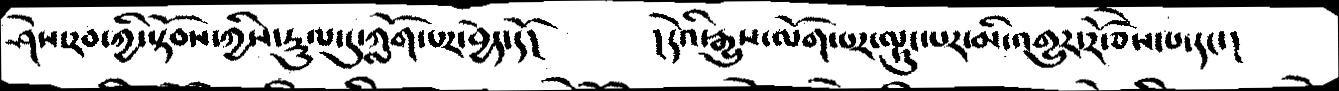ཤེས་རབ་ཀྱི་སྟོབས་ཀྱིས་རྡུལ་དུ་ཀློག་པར་བྱེད་དོ།   །དེའི་རྒྱུས་ལོག་པར་ལྟུང་པར་མི་འགྱུར་རོ་ཅེས་པ་དང་།
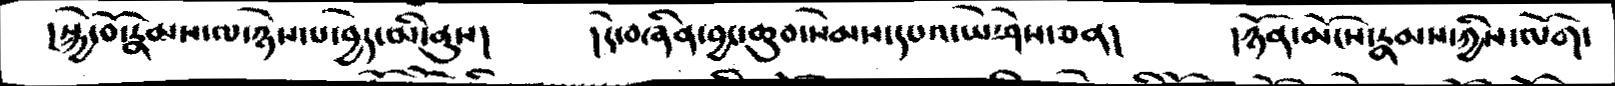།སྐྱེ་བོ་རྣམས་ལ་ཉེས་པ་བྱེད་མི་ནུས།    །དེ་བཞིན་བྱང་ཆུབ་སེམས་དཔའ་ཡེ་ཤེས་ཅན།    །ཉོན་མོངས་རྣམས་ཀྱིས་ལོག་
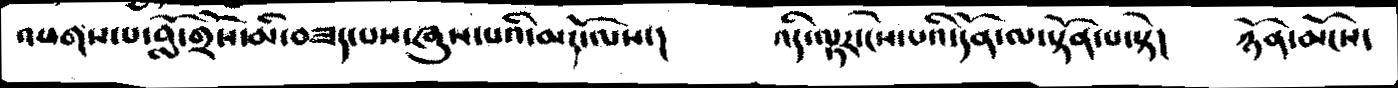འཕགས་པ་བློ་གྲོས་མི་བཟད་པས་ཞུས་པའི་མདོ་ལས་།    འདི་ལྟར་ངེས་པའི་དོན་ལ་སྟོན་པ་སྟེ།   ཉོན་མོངས་
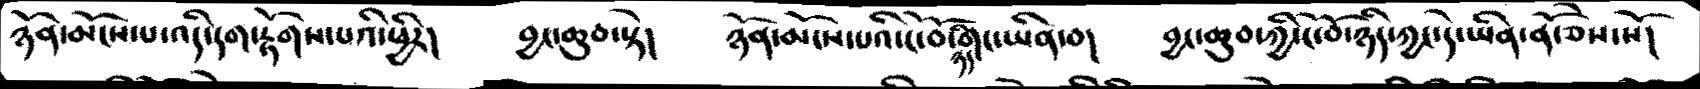ཉོན་མོངས་པ་འདི་དག་རྟོགས་པའི་ཕྱིར།   བྱང་ཆུབ་སྟེ།   ཉོན་མོངས་པའི་ངོ་བོ་ཉིད་གང་ཡིན་བ།   བྱང་ཆུབ་ཀྱི་ངོ་བོ་ཉིད་ཀྱང་དེ་ཡིན་ནོ་ཅེས་སོ།
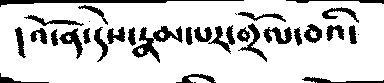།འོ་ན་དེས་རྣམ་པར་གྲོལ་བའི་
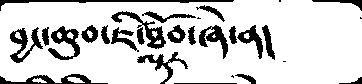བྱང་ཆུབ་ཇི་ལྟར་ཐོབ་ཞེ་ན།
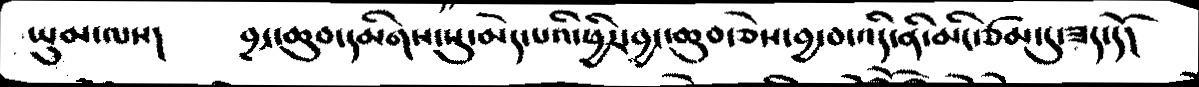ཡུམ་ལས།    བྱང་ཆུབ་དམིགས་སུ་མེད་པའི་ཕྱིར་བྱང་ཆུབ་ཅེས་བྱ་བ་འདི་ནི་མིང་ཙམ་དུ་ཟད་དོ།
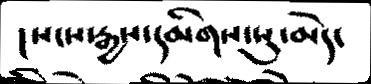།སངས་རྒྱས་དམིགས་སུ་མེད་
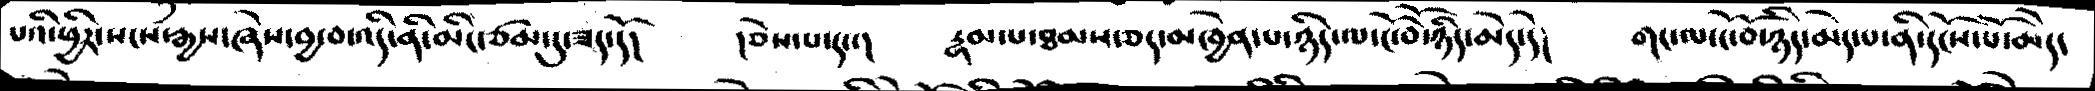པའི་ཕྱིར་སངས་རྒྱས་ཞེས་བྱ་བ་འདི་ནི་མིང་ཙམ་དུ་ཟད་དོ།   །ཅེས་པ་དང་།   རྣམ་པ་ཐམས་ཅད་མཁྱེན་པ་ཉིད་ལ་ངོ་བོ་ཉིད་མེད་དེ།   གང་ལ་ངོ་བོ་ཉིད་མེད་པ་ནི་དངོས་པོ་མེད་
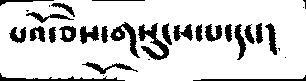པའོ་ཅེས་གསུངས་པ་དང་།
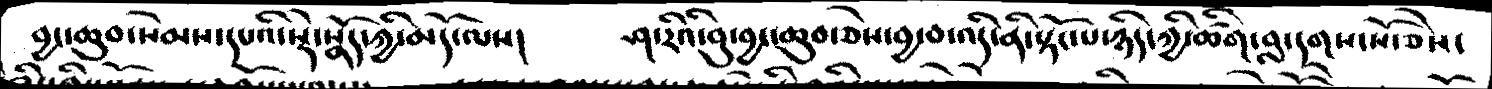བྱང་ཆུབ་སེམས་དཔའི་སྡེ་སྣོད་ཀྱི་མདོ་ལས།   ཤ་རིའི་བུ་བྱང་ཆུབ་ཅེས་བྱ་བ་འདི་ནི་སྟོང་པ་ཉིད་ཀྱི་ཚིག་བླ་དགས་སོ་ཅེས་
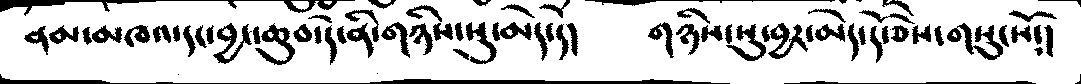ནམ་མཁའ་དང་བྱང་ཆུབ་དེ་ནི་གཉིས་སུ་མེད་དེ།    གཉིས་སུ་བྱར་མེད་དོ་ཅེས་གསུངསོ༴།
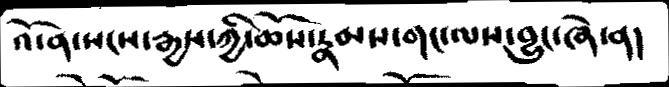འོ་ན་སངས་རྒྱས་ཀྱི་ཆོས་རྣམས་གང་ལས་བྱུང་ཞེ་ན།
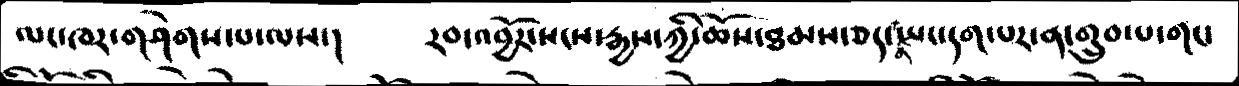ལང་ཁར་གཤེགས་པ་ལས་།   རབ་འབྱོར་སངས་རྒྱས་ཀྱི་ཆོས་ཐམས་ཅད་ནི་ཡང་དག་པར་ན་གྲུབ་པ་གང་
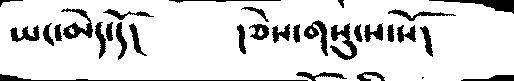ཡང་མེད་དོ།      །ཅེས་གསུངས་སོ།
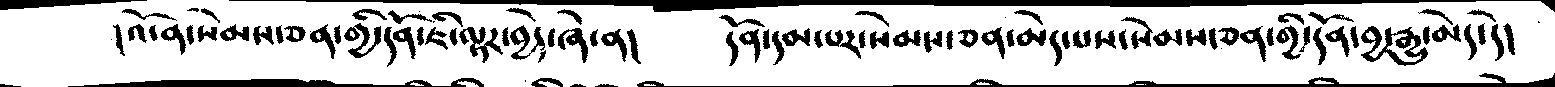།འོ་ན་སེམས་ཅན་གྱི་དོན་ཇི་ལྟར་བྱེད་ཞེ་ན།    དོན་དམ་པར་སེམས་ཅན་མེད་པས་སེམས་ཅན་གྱི་དོན་བྱ་རྒྱུ་མེད་དེ།
